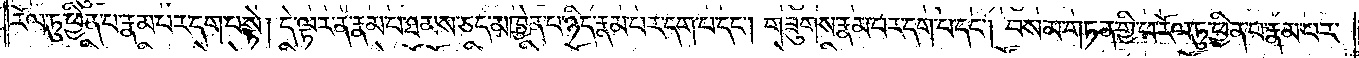རོལ་ཏུ་ཕྱིན་པ་རྣམ་པར་དག་པ་སྟེ། དེ་ལྟར་ན་རྣམ་པ་ཐམས་ཅད་མཁྱེན་པ་ཉིད་རྣམ་པར་དག་པ་དང༌། གཟུགས་རྣམ་པར་དག་པ་དང༌། བསམ་གཏན་གྱི་ཕ་རོལ་ཏུ་ཕྱིན་པ་རྣམ་པར་
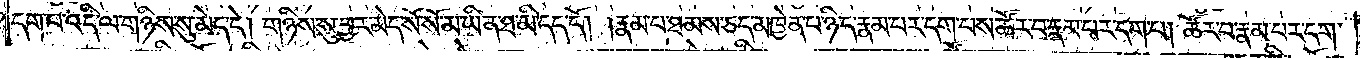དག་པ་འདི་ལ་གཉིས་སུ་མེད་དེ། གཉིས་སུ་བྱར་མེད་སོ་སོ་མ་ཡིན་ཐ་མི་དད་དོ། །རྣམ་པ་ཐམས་ཅད་མཁྱེན་པ་ཉིད་རྣམ་པར་དག་པས་ཚོར་བ་རྣམ་པར་དག་པ། ཚོར་བ་རྣམ་པར་དག་
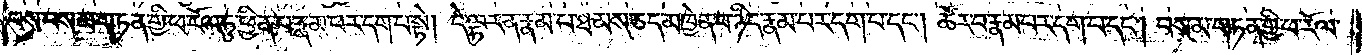པས་བསམ་གཏན་གྱི་ཕ་རོལ་ཏུ་ཕྱིན་པ་རྣམ་པར་དག་པ་སྟེ། དེ་ལྟར་ན་རྣམ་པ་ཐམས་ཅད་མཁྱེན་པ་ཉིད་རྣམ་པར་དག་པ་དང༌། ཚོར་བ་རྣམ་པར་དག་པ་དང༌། བསམ་གཏན་གྱི་ཕ་རོལ་
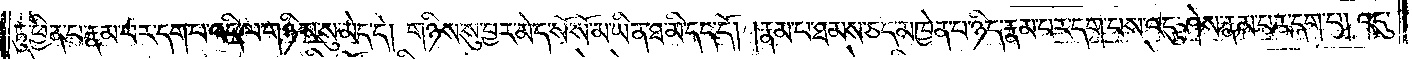ཏུ་ཕྱིན་པ་རྣམ་པར་དག་པ་འདི་ལ་གཉིས་སུ་མེད་དེ། གཉིས་སུ་བྱར་མེད་སོ་སོ་མ་ཡིན་ཐ་མི་དད་དོ། །རྣམ་པ་ཐམས་ཅད་མཁྱེན་པ་ཉིད་རྣམ་པར་དག་པས་འདུ་ཤེས་རྣམ་པར་དག་པ། འདུ་
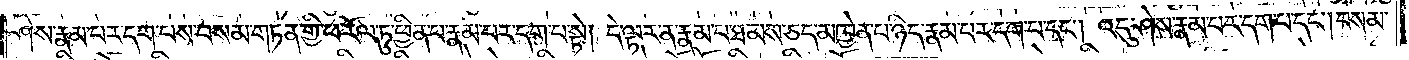ཤེས་རྣམ་པར་དག་པས་བསམ་གཏན་གྱི་ཕ་རོལ་ཏུ་ཕྱིན་པ་རྣམ་པར་དག་པ་སྟེ། དེ་ལྟར་ན་རྣམ་པ་ཐམས་ཅད་མཁྱེན་པ་ཉིད་རྣམ་པར་དག་པ་དང༌། འདུ་ཤེས་རྣམ་པར་དག་པ་དང༌། བསམ་
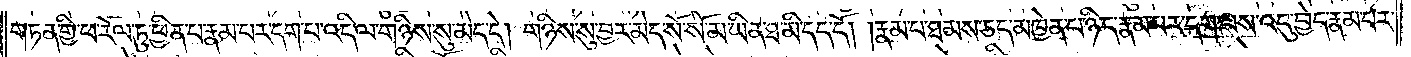གཏན་གྱི་ཕ་རོལ་ཏུ་ཕྱིན་པ་རྣམ་པར་དག་པ་འདི་ལ་གཉིས་སུ་མེད་དེ། གཉིས་སུ་བྱར་མེད་སོ་སོ་མ་ཡིན་ཐ་མི་དད་དོ། །རྣམ་པ་ཐམས་ཅད་མཁྱེན་པ་ཉིད་རྣམ་པར་དག་པས་འདུ་བྱེད་རྣམ་པར་
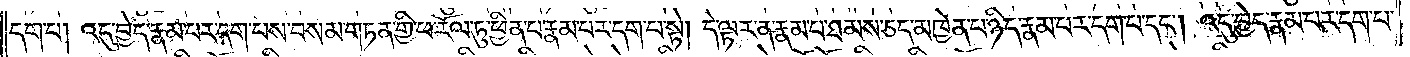དག་པ། འདུ་བྱེད་རྣམ་པར་དག་པས་བསམ་གཏན་གྱི་ཕ་རོལ་ཏུ་ཕྱིན་པ་རྣམ་པར་དག་པ་སྟེ། དེ་ལྟར་ན་རྣམ་པ་ཐམས་ཅད་མཁྱེན་པ་ཉིད་རྣམ་པར་དག་པ་དང༌། འདུ་བྱེད་རྣམ་པར་དག་པ་
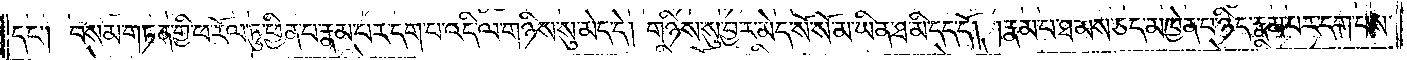དང༌། བསམ་གཏན་གྱི་ཕ་རོལ་ཏུ་ཕྱིན་པ་རྣམ་པར་དག་པ་འདི་ལ་གཉིས་སུ་མེད་དེ། གཉིས་སུ་བྱར་མེད་སོ་སོ་མ་ཡིན་ཐ་མི་དད་དོ། །རྣམ་པ་ཐམས་ཅད་མཁྱེན་པ་ཉིད་རྣམ་པར་དག་པས་
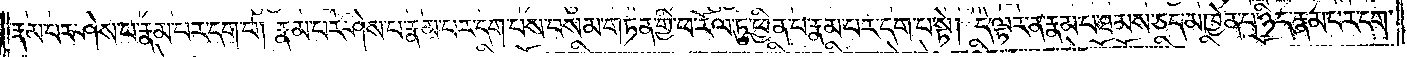རྣམ་པར་ཤེས་པ་རྣམ་པར་དག་པ། རྣམ་པར་ཤེས་པ་རྣམ་པར་དག་པས་བསམ་གཏན་གྱི་ཕ་རོལ་ཏུ་ཕྱིན་པ་རྣམ་པར་དག་པ་སྟེ། དེ་ལྟར་ན་རྣམ་པ་ཐམས་ཅད་མཁྱེན་པ་ཉིད་རྣམ་པར་དག་
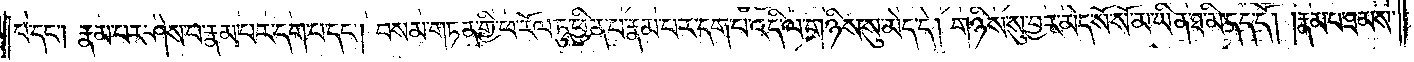པ་དང༌། རྣམ་པར་ཤེས་པ་རྣམ་པར་དག་པ་དང༌། བསམ་གཏན་གྱི་ཕ་རོལ་ཏུ་ཕྱིན་པ་རྣམ་པར་དག་པ་འདི་ལ་གཉིས་སུ་མེད་དེ། གཉིས་སུ་བྱར་མེད་སོ་སོ་མ་ཡིན་ཐ་མི་དད་དོ། །རྣམ་པ་ཐམས་
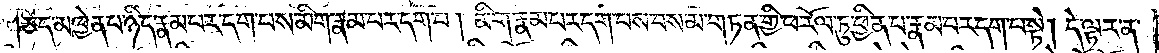ཅད་མཁྱེན་པ་ཉིད་རྣམ་པར་དག་པས་མིག་རྣམ་པར་དག་པ། མིག་རྣམ་པར་དག་པས་བསམ་གཏན་གྱི་ཕ་རོལ་ཏུ་ཕྱིན་པ་རྣམ་པར་དག་པ་སྟེ། དེ་ལྟར་ན་
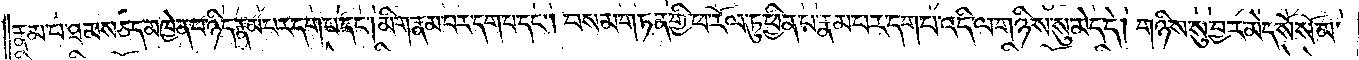རྣམ་པ་ཐམས་ཅད་མཁྱེན་པ་ཉིད་རྣམ་པར་དག་པ་དང༌། མིག་རྣམ་པར་དག་པ་དང༌། བསམ་གཏན་གྱི་ཕ་རོལ་ཏུ་ཕྱིན་པ་རྣམ་པར་དག་པ་འདི་ལ་གཉིས་སུ་མེད་དེ། གཉིས་སུ་བྱར་མེད་སོ་སོ་མ་
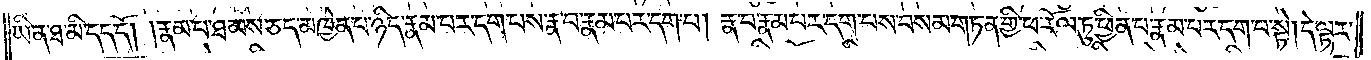ཡིན་ཐ་མི་དད་དོ། །རྣམ་པ་ཐམས་ཅད་མཁྱེན་པ་ཉིད་རྣམ་པར་དག་པས་རྣ་བ་རྣམ་པར་དག་པ། རྣ་བ་རྣམ་པར་དག་པས་བསམ་གཏན་གྱི་ཕ་རོལ་ཏུ་ཕྱིན་པ་རྣམ་པར་དག་པ་སྟེ། དེ་ལྟར་
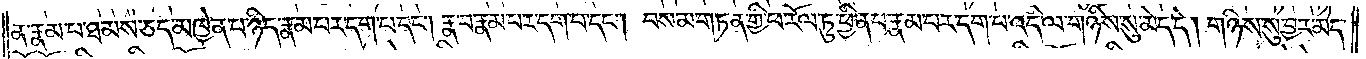ན་རྣམ་པ་ཐམས་ཅད་མཁྱེན་པ་ཉིད་རྣམ་པར་དག་པ་དང༌། རྣ་བ་རྣམ་པར་དག་པ་དང༌། བསམ་གཏན་གྱི་ཕ་རོལ་ཏུ་ཕྱིན་པ་རྣམ་པར་དག་པ་འདི་ལ་གཉིས་སུ་མེད་དེ། གཉིས་སུ་བྱར་མེད་
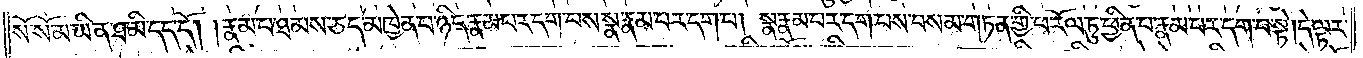སོ་སོ་མ་ཡིན་ཐ་མི་དད་དོ། །རྣམ་པ་ཐམས་ཅད་མཁྱེན་པ་ཉིད་རྣམ་པར་དག་པས་སྣ་རྣམ་པར་དག་པ། སྣ་རྣམ་པར་དག་པས་བསམ་གཏན་གྱི་ཕ་རོལ་ཏུ་ཕྱིན་པ་རྣམ་པར་དག་པ་སྟེ། དེ་ལྟར་
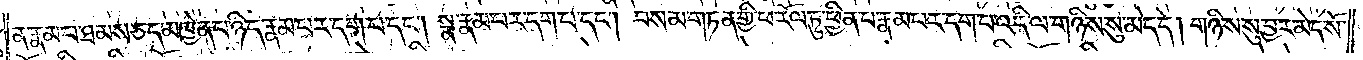ན་རྣམ་པ་ཐམས་ཅད་མཁྱེན་པ་ཉིད་རྣམ་པར་དག་པ་དང༌། སྣ་རྣམ་པར་དག་པ་དང༌། བསམ་གཏན་གྱི་ཕ་རོལ་ཏུ་ཕྱིན་པ་རྣམ་པར་དག་པ་འདི་ལ་གཉིས་སུ་མེད་དེ། གཉིས་སུ་བྱར་མེད་སོ་
